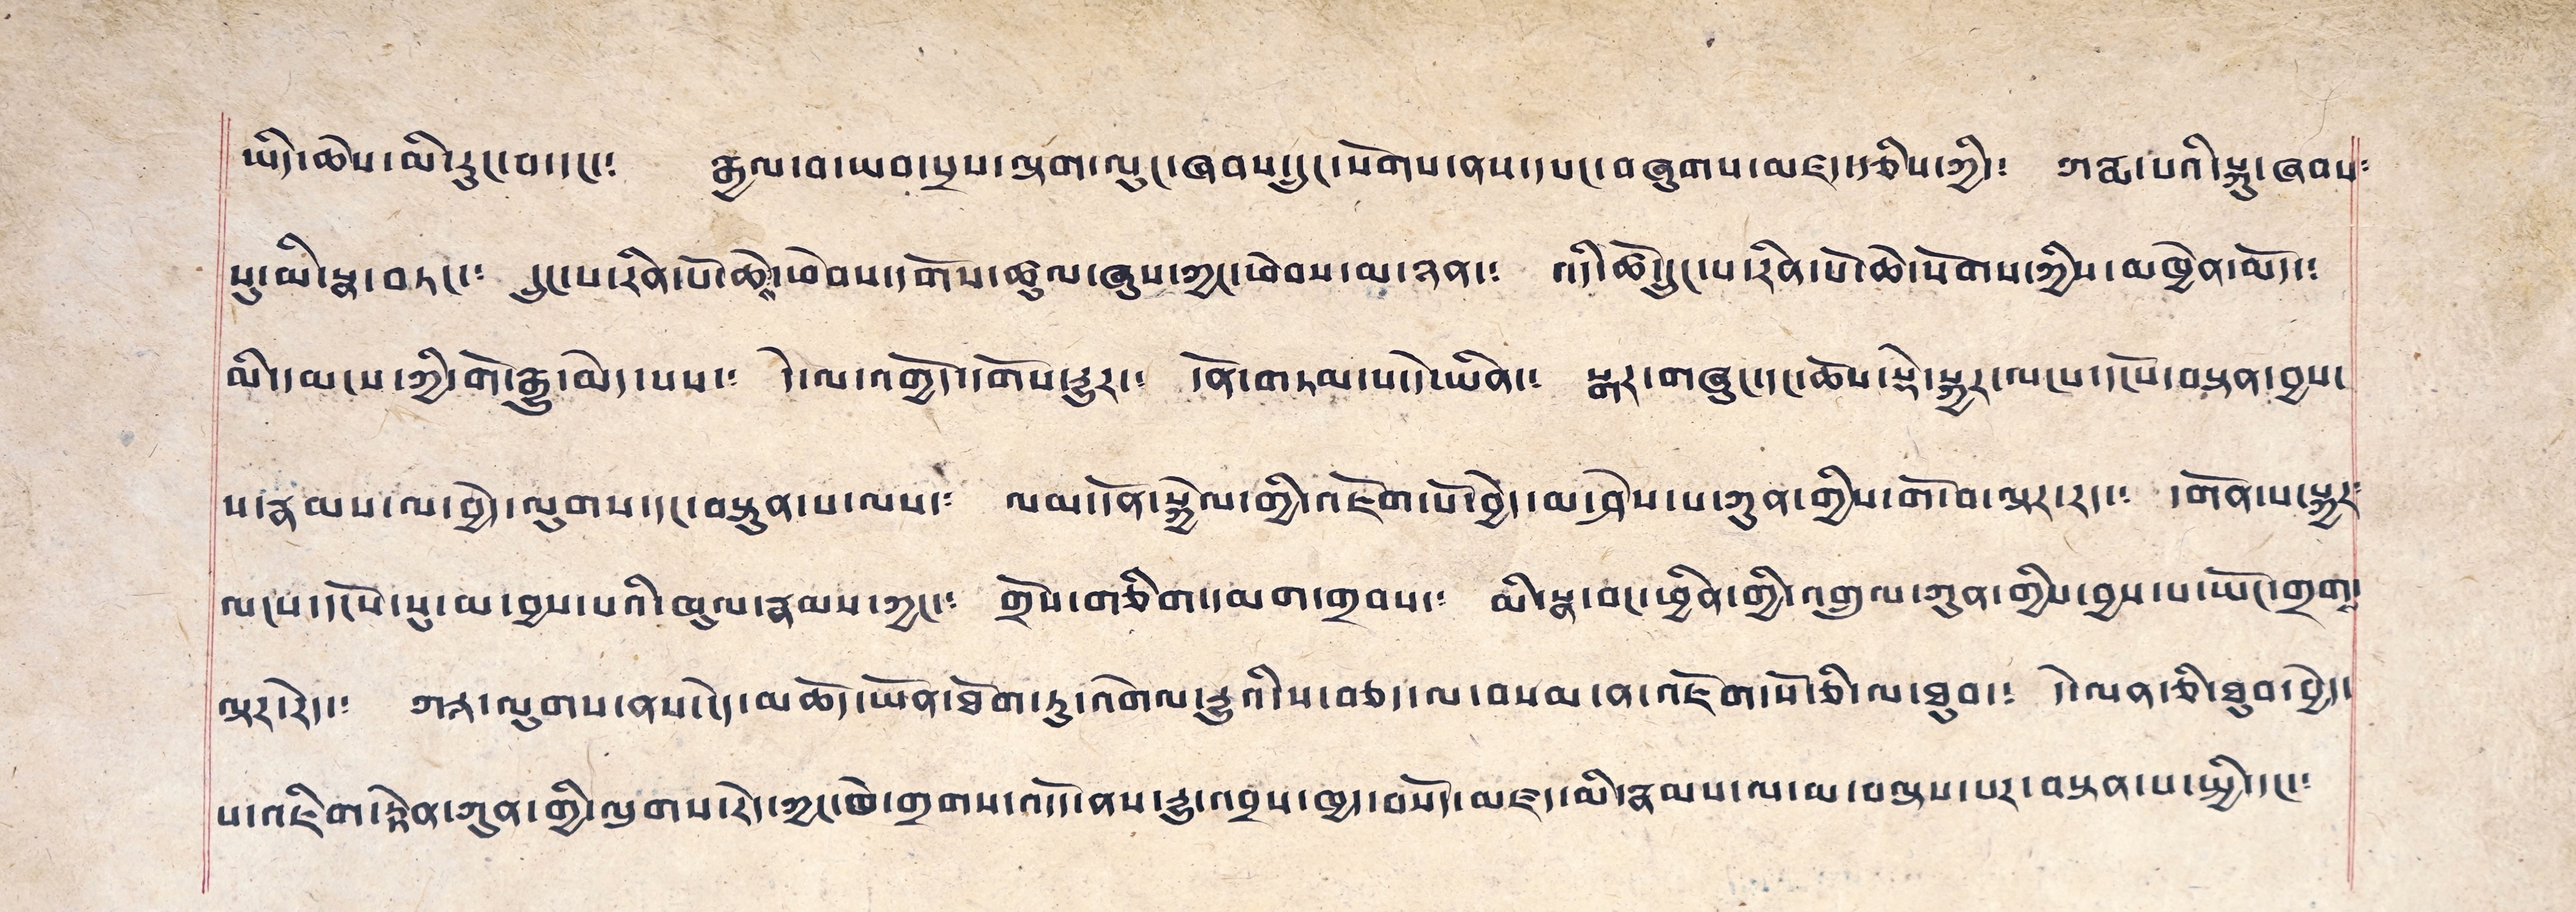ཡིད་ཆེས་མི་རྡུང་བ་དང་༴ རྒྱལ་བ་ཡབ་སྲས་ལྟག་ལུང་ཞབས་དྲུང་སོགས་ནས་དཔང་བཞུགས་མཛད་རྩིས་ཀྱི་༴ ཀརྨ་པའི་སྐུ་ཞབས༴
སུ་མི་སྣ་བཏང་༴ དྲུང་པ་རིན་པོ་ཆེ་ཕེབས་དགོས་ཚུལ་ཞུས་ཀྱང་ཕེབས་མ་ཉན་༴ འདི་ཚེ་དྲུང་པ་རིན་པོ་ཆེ་སོགས་ཀྱིས་མཁྱེན་མོད་༴
མི་དམངས་ཀྱི་གོ་རྒྱུ་མེད་པས་༴ དེ་ལ་འགྱོད་དགོས་རྒྱུར་། དོན་གཏམ་པ་དེ་ཡིན་༴ སྒར་གཞུང་དང་ཆོས་སྡེ་སྐྱར་ལངས་དངོས་བསྟན་བྱས་
པ་རྣམས་ལ་བྱེད་ལུགས་དང་བསྟུན་པ་ལས་༴ ལམ་དོན་སྐྱེལ་གྱི་འཇོག་པོ་བྱེད་མ་ཤེས་པ་ཀུན་གྱིས་གོ་བ་སྟར་རང་༴ དགོན་པ་སྐྱར༴
ལངས་དངོས་སུ་མ་བྱས་པའི་ཁུལ་རྣམས་ཀྱང་༴ གྲོས་གཅིག་དམག་གྲབས་༴ མི་སྣ་བང་ཕྱིན་གྱི་འགྲུལ་ཀུན་གྱིས་བྱས་པ་ཡོང་གྲགྶ་
ལྟར་རེད་༴ ཀར་ལུགས་ནས་ངེད་མཆོད་ཡོན་ཐོག་ཏུ་འགེལ་རྒྱུའི་ས་བཅད་ལ་བསམ་ན་འཇོག་པོ་ཅི་ལ་ཐུབ་༴ དེ་ལན་ཅི་ཐུབ་བྱེད་
པ་འཇིག་རྟེན་ཀུན་གྱི་ལུགས་རེ་ཀྱང་ཁེ་གྲགས་འདོད་ནས་རྒྱུ་འབྲས་ཁྱད་བསོད་མཛད་མི་རྣམས་ལ་མ་བསྟས་པར་བསྟན་པ་སྤྱི་དང་༴
